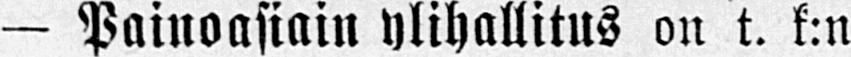— Painoasiain ylihallitus on t. k:n
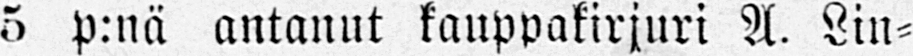5 p:nä antanut kauppakirjuri A. Lin-
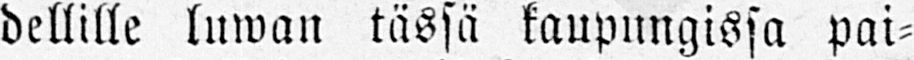dellille luwan tässä kaupungissa pai-
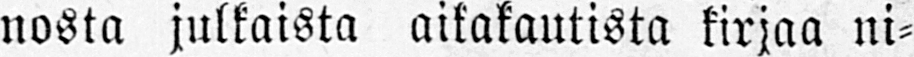nosta julkaista aikakautista kirjaa ni-
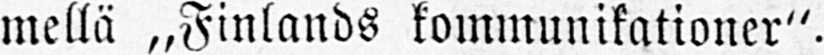mellä „Finlands kommunikationer".
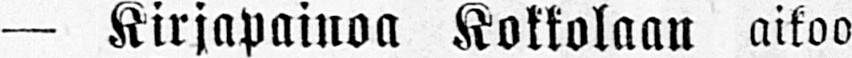— Kirjapainoa Kokkolaan aikoo
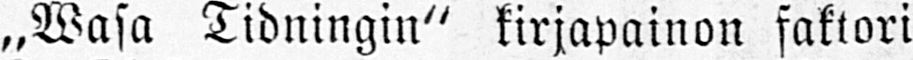„Wasa Tidningin" kirjapainon faktori
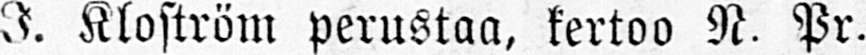I. Kloström perustaa, kertoo N. Pr.
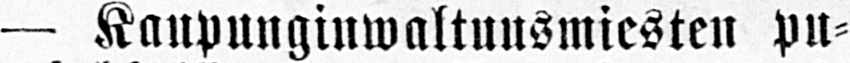— Kaupunginwaltuusmiesten pu-
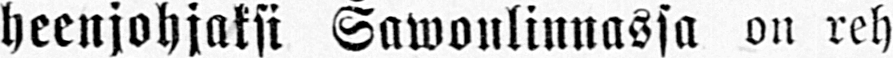heenjohjaksi Sawonlinnassa on reh-
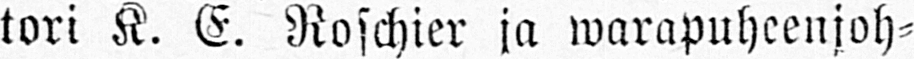tori K. E. Roschier ja warapuheenjoh-
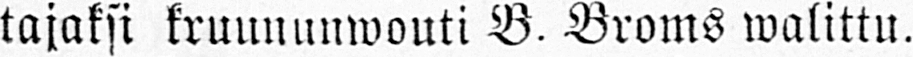tajaksi kruununwouti B. Broms walittu.
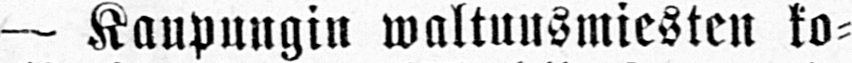— Kaupungin waltuusmiesten ko-
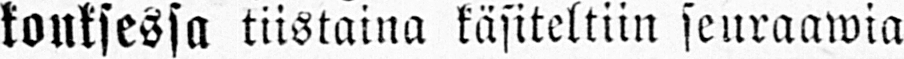kouksessa tiistaina käsiteltiin seuraawia
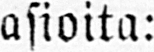asioita:
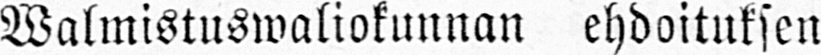Walmistuswaliokunnan ehdoituksen
